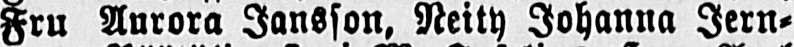Fru Aurora Jansson, Neity Johanna Jern-
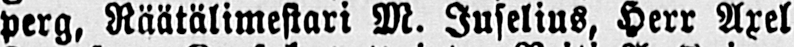perg, Räätälimestari M. Juselius, Herr Axel
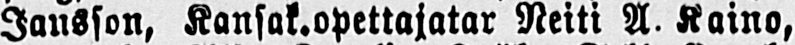Jansson, Kansak.opettajatar Neiti A Kaino,
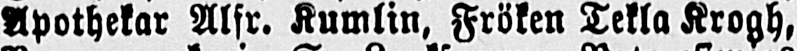Apothekar Alfr. Kumlin, Fröken Tekla Krogh,
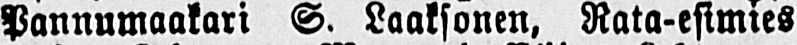Pannumaakari S. Laaksonen, Rata-esimes
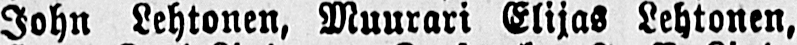John Lehtonen, Muurari Elijas Lehtonen.
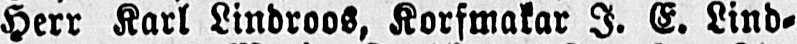Herr Karl Lindroos, Korsmakar I. E. Lind-
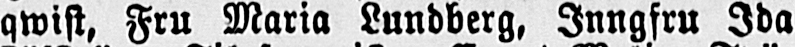qwist, Fru Maria Lundberg, Inngfru Ida
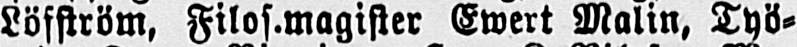Löfström, Filos.magister Ewert Malin, Työ-
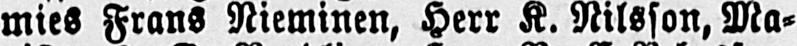mies Frans Nieminen, Herr K. Nilsson, Ma-
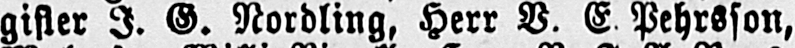gister I. G. Nordling, Herr V. E Pehrsson,
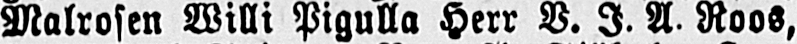Malrosen Willi Pigulla Herr V. I. A Roos,
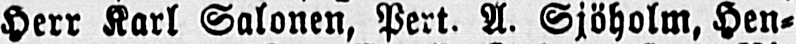Herr Karl Salonen, Pert. A. Sjöholm, Hen-
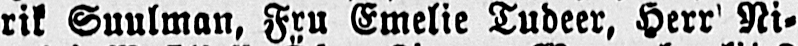rik Suulman, Fru Emelie Tudeer, Herr Ni-
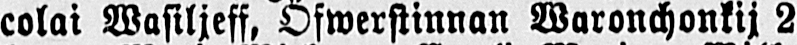colai Wasiljeff, Öfwerstinnan Waronchonkij 2
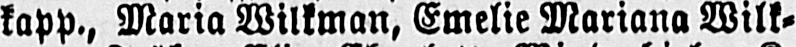kapp., Maria Wilkman, Emelie Mariana Wilk-
